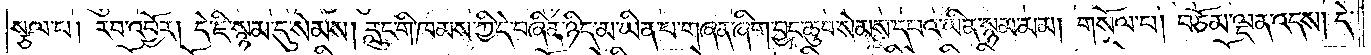སྩལ་པ། རབ་འབྱོར། དེ་ཇི་སྙམ་དུ་སེམས། རླུང་གི་ཁམས་ཀྱི་དེ་བཞིན་ཉིད་མ་ཡིན་པ་གཞན་ཞིག་བྱང་ཆུབ་སེམས་དཔའ་ཡིན་སྙམ་མམ། གསོལ་པ། བཅོམ་ལྡན་འདས། དེ་
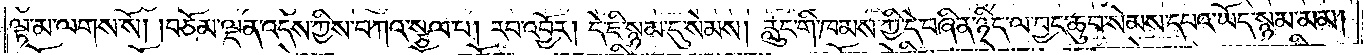ལྟ་མ་ལགས་སོ། །བཅོམ་ལྡན་འདས་ཀྱིས་བཀའ་སྩལ་པ། རབ་འབྱོར། དེ་ཇི་སྙམ་དུ་སེམས། རླུང་གི་ཁམས་ཀྱི་དེ་བཞིན་ཉིད་ལ་བྱང་ཆུབ་སེམས་དཔའ་ཡོད་སྙམ་མམ།
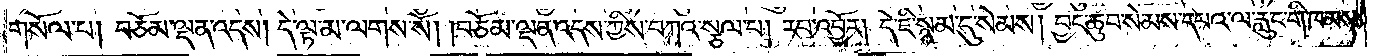གསོལ་པ། བཅོམ་ལྡན་འདས། དེ་ལྟ་མ་ལགས་སོ། །བཅོམ་ལྡན་འདས་ཀྱིས་བཀའ་སྩལ་པ། རབ་འབྱོར། དེ་ཇི་སྙམ་དུ་སེམས། བྱང་ཆུབ་སེམས་དཔའ་ལ་རླུང་གི་ཁམས་
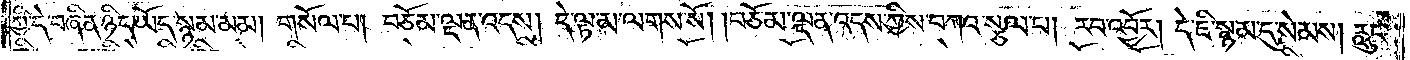ཀྱི་དེ་བཞིན་ཉིད་ཡོད་སྙམ་མམ། གསོལ་པ། བཅོམ་ལྡན་འདས། དེ་ལྟ་མ་ལགས་སོ། །བཅོམ་ལྡན་འདས་ཀྱིས་བཀའ་སྩལ་པ། རབ་འབྱོར། དེ་ཇི་སྙམ་དུ་སེམས། རླུང་
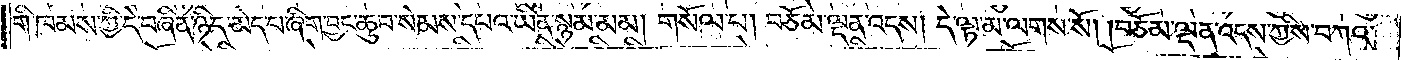གི་ཁམས་ཀྱི་དེ་བཞིན་ཉིད་མེད་པ་ཞིག་བྱང་ཆུབ་སེམས་དཔའ་ཡིན་སྙམ་མམ། གསོལ་པ། བཅོམ་ལྡན་འདས། དེ་ལྟ་མ་ལགས་སོ། །བཅོམ་ལྡན་འདས་ཀྱིས་བཀའ་
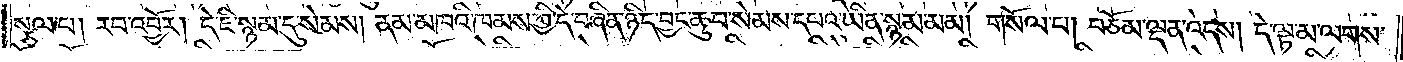སྩལ་པ། རབ་འབྱོར། དེ་ཇི་སྙམ་དུ་སེམས། ནམ་མཁའི་ཁམས་ཀྱི་དེ་བཞིན་ཉིད་བྱང་ཆུབ་སེམས་དཔའ་ཡིན་སྙམ་མམ། གསོལ་པ། བཅོམ་ལྡན་འདས། དེ་ལྟ་མ་ལགས་
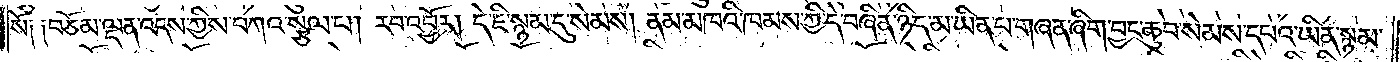སོ༑ ༑བཅོམ་ལྡན་འདས་ཀྱིས་བཀའ་སྩལ་པ། རབ་འབྱོར། དེ་ཇི་སྙམ་དུ་སེམས། ནམ་མཁའི་ཁམས་ཀྱི་དེ་བཞིན་ཉིད་མ་ཡིན་པ་གཞན་ཞིག་བྱང་ཆུབ་སེམས་དཔའ་ཡིན་སྙམ་
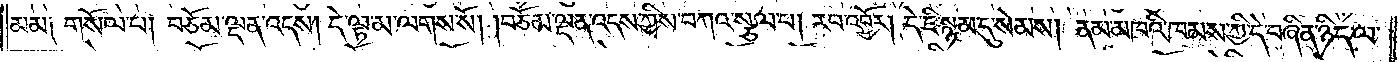མམ༑ གསོལ་པ། བཅོམ་ལྡན་འདས། དེ་ལྟ་མ་ལགས་སོ། །བཅོམ་ལྡན་འདས་ཀྱིས་བཀའ་སྩལ་པ། རབ་འབྱོར། དེ་ཇི་སྙམ་དུ་སེམས། ནམ་མཁའི་ཁམས་ཀྱི་དེ་བཞིན་ཉིད་ལ་
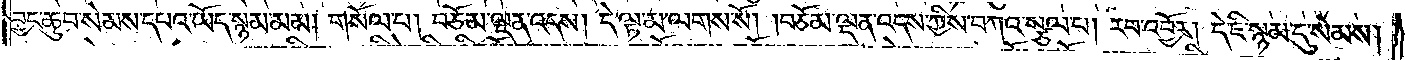བྱང་ཆུབ་སེམས་དཔའ་ཡོད་སྙམ་མམ། གསོལ་པ། བཅོམ་ལྡན་འདས། དེ་ལྟ་མ་ལགས་སོ། །བཅོམ་ལྡན་འདས་ཀྱིས་བཀའ་སྩལ་པ། རབ་འབྱོར། དེ་ཇི་སྙམ་དུ་སེམས།
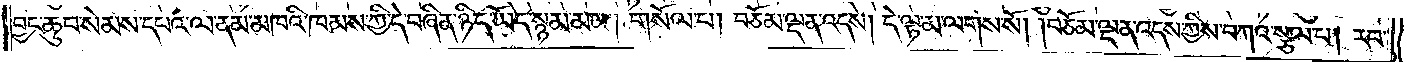བྱང་ཆུབ་སེམས་དཔའ་ལ་ནམ་མཁའི་ཁམས་ཀྱི་དེ་བཞིན་ཉིད་ཡོད་སྙམ་མམ། གསོལ་པ། བཅོམ་ལྡན་འདས། དེ་ལྟ་མ་ལགས་སོ། །བཅོམ་ལྡན་འདས་ཀྱིས་བཀའ་སྩལ་པ། རབ་
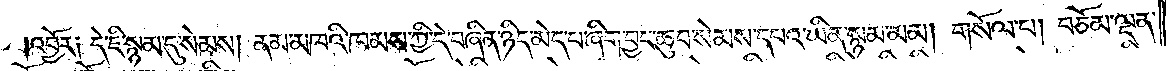འབྱོར༑ དེ་ཇི་སྙམ་དུ་སེམས། ནམ་མཁའི་ཁམས་ཀྱི་དེ་བཞིན་ཉིད་མེད་པ་ཞིག་བྱང་ཆུབ་སེམས་དཔའ་ཡིན་སྙམ་མམ། གསོལ་པ། བཅོམ་ལྡན་
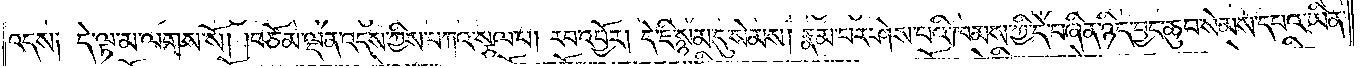འདས༑ དེ་ལྟ་མ་ལགས་སོ། །བཅོམ་ལྡན་འདས་ཀྱིས་བཀའ་སྩལ་པ། རབ་འབྱོར། དེ་ཇི་སྙམ་དུ་སེམས། རྣམ་པར་ཤེས་པའི་ཁམས་ཀྱི་དེ་བཞིན་ཉིད་བྱང་ཆུབ་སེམས་དཔའ་ཡིན་
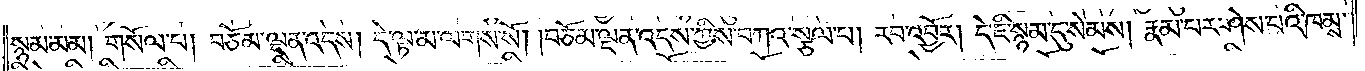སྙམ་མམ། གསོལ་པ། བཅོམ་ལྡན་འདས། དེ་ལྟ་མ་ལགས་སོ། །བཅོམ་ལྡན་འདས་ཀྱིས་བཀའ་སྩལ་པ། རབ་འབྱོར། དེ་ཇི་སྙམ་དུ་སེམས། རྣམ་པར་ཤེས་པའི་ཁམས་
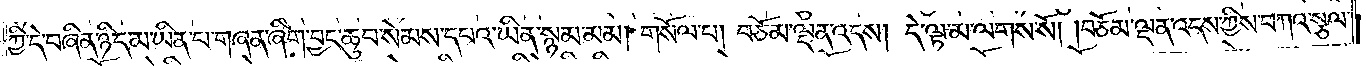ཀྱི་དེ་བཞིན་ཉིད་མ་ཡིན་པ་གཞན་ཞིག་བྱང་ཆུབ་སེམས་དཔའ་ཡིན་སྙམ་མམ། གསོལ་པ། བཅོམ་ལྡན་འདས། དེ་ལྟ་མ་ལགས་སོ། །བཅོམ་ལྡན་འདས་ཀྱིས་བཀའ་སྩལ་
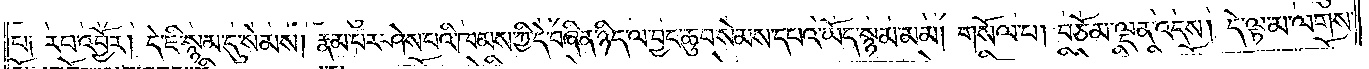པ༑ རབ་འབྱོར། དེ་ཇི་སྙམ་དུ་སེམས། རྣམ་པར་ཤེས་པའི་ཁམས་ཀྱི་དེ་བཞིན་ཉིད་ལ་བྱང་ཆུབ་སེམས་དཔའ་ཡོད་སྙམ་མམ། གསོལ་པ། བཅོམ་ལྡན་འདས། དེ་ལྟ་མ་ལགས་
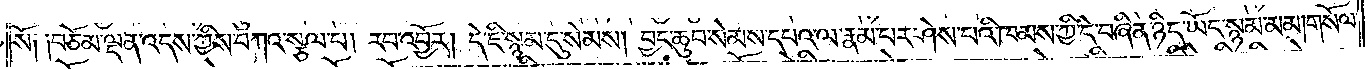སོ༑ ༑བཅོམ་ལྡན་འདས་ཀྱིས་བཀའ་སྩལ་པ། རབ་འབྱོར། དེ་ཇི་སྙམ་དུ་སེམས། བྱང་ཆུབ་སེམས་དཔའ་ལ་རྣམ་པར་ཤེས་པའི་ཁམས་ཀྱི་དེ་བཞིན་ཉིད་ཡོད་སྙམ་མམ། གསོལ་
